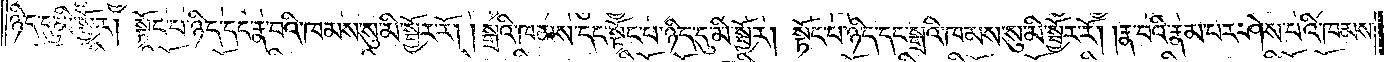ཉིད་དུ་མི་སྦྱོར། སྟོང་པ་ཉིད་དང་རྣ་བའི་ཁམས་སུ་མི་སྦྱོར་རོ། །སྒྲའི་ཁམས་དང་སྟོང་པ་ཉིད་དུ་མི་སྦྱོར། སྟོང་པ་ཉིད་དང་སྒྲའི་ཁམས་སུ་མི་སྦྱོར་རོ། །རྣ་བའི་རྣམ་པར་ཤེས་པའི་ཁམས་
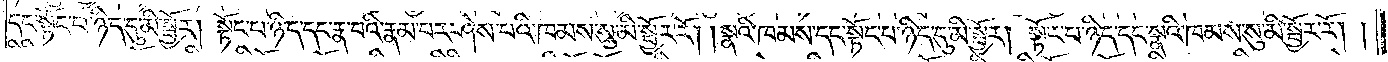དང་སྟོང་པ་ཉིད་དུ་མི་སྦྱོར། སྟོང་པ་ཉིད་དང་རྣ་བའི་རྣམ་པར་ཤེས་པའི་ཁམས་སུ་མི་སྦྱོར་རོ། །སྣའི་ཁམས་དང་སྟོང་པ་ཉིད་དུ་མི་སྦྱོར། སྟོང་པ་ཉིད་དང་སྣའི་ཁམས་སུ་མི་སྦྱོར་རོ། །
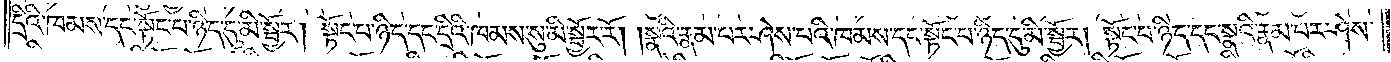དྲིའི་ཁམས་དང་སྟོང་པ་ཉིད་དུ་མི་སྦྱོར། སྟོང་པ་ཉིད་དང་དྲིའི་ཁམས་སུ་མི་སྦྱོར་རོ། །སྣའི་རྣམ་པར་ཤེས་པའི་ཁམས་དང་སྟོང་པ་ཉིད་དུ་མི་སྦྱོར། སྟོང་པ་ཉིད་དང་སྣའི་རྣམ་པར་ཤེས་
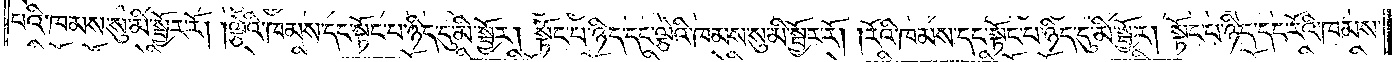པའི་ཁམས་སུ་མི་སྦྱོར་རོ། །ལྕེའི་ཁམས་དང་སྟོང་པ་ཉིད་དུ་མི་སྦྱོར། སྟོང་པ་ཉིད་དང་ལྕེའི་ཁམས་སུ་མི་སྦྱོར་རོ། །རོའི་ཁམས་དང་སྟོང་པ་ཉིད་དུ་མི་སྦྱོར། སྟོང་པ་ཉིད་དང་རོའི་ཁམས་
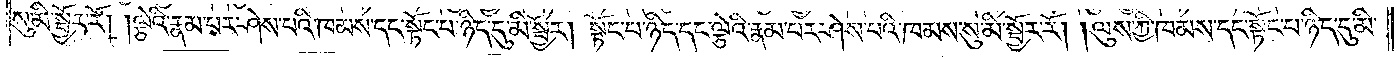སུ་མི་སྦྱོར་རོ། ལྕེའི་རྣམ་པར་ཤེས་པའི་ཁམས་དང་སྟོང་པ་ཉིད་དུ་མི་སྦྱོར། སྟོང་པ་ཉིད་དང་ལྕེའི་རྣམ་པར་ཤེས་པའི་ཁམས་སུ་མི་སྦྱོར་རོ། །ལུས་ཀྱི་ཁམས་དང་སྟོང་པ་ཉིད་དུ་མི་
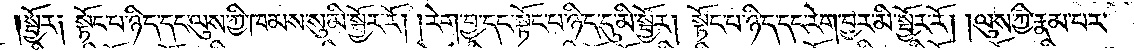སྦྱོར༑ སྟོང་པ་ཉིད་དང་ལུས་ཀྱི་ཁམས་སུ་མི་སྦྱོར་རོ། །རེག་བྱ་དང་སྟོང་པ་ཉིད་དུ་མི་སྦྱོར། སྟོང་པ་ཉིད་དང་རེག་བྱར་མི་སྦྱོར་རོ། །ལུས་ཀྱི་རྣམ་པར་
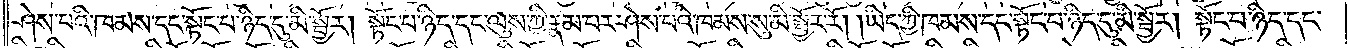ཤེས་པའི་ཁམས་དང་སྟོང་པ་ཉིད་དུ་མི་སྦྱོར། སྟོང་པ་ཉིད་དང་ལུས་ཀྱི་རྣམ་པར་ཤེས་པའི་ཁམས་སུ་མི་སྦྱོར་རོ། །ཡིད་ཀྱི་ཁམས་དང་སྟོང་པ་ཉིད་དུ་མི་སྦྱོར། སྟོང་པ་ཉིད་དང་
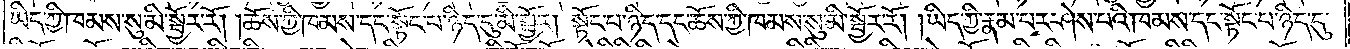ཡིད་ཀྱི་ཁམས་སུ་མི་སྦྱོར་རོ། །ཆོས་ཀྱི་ཁམས་དང་སྟོང་པ་ཉིད་དུ་མི་སྦྱོར། སྟོང་པ་ཉིད་དང་ཆོས་ཀྱི་ཁམས་སུ་མི་སྦྱོར་རོ། །ཡིད་ཀྱི་རྣམ་པར་ཤེས་པའི་ཁམས་དང་སྟོང་པ་ཉིད་དུ་
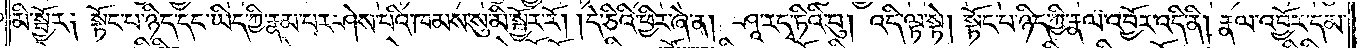མི་སྦྱོར༑ སྟོང་པ་ཉིད་དང་ཡིད་ཀྱི་རྣམ་པར་ཤེས་པའི་ཁམས་སུ་མི་སྦྱོར་རོ། །དེ་ཅིའི་ཕྱིར་ཞེ་ན། ཤཱ་ར་དྭ་ཏིའི་བུ། འདི་ལྟ་སྟེ། སྟོང་པ་ཉིད་ཀྱི་རྣལ་འབྱོར་འདི་ནི། རྣལ་འབྱོར་དམ་
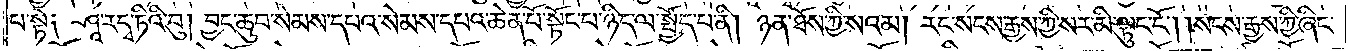པ་སྟེ༑ ཤཱ་ར་དྭ་ཏིའི་བུ། བྱང་ཆུབ་སེམས་དཔའ་སེམས་དཔའ་ཆེན་པོ་སྟོང་པ་ཉིད་ལ་སྤྱོད་པ་ནི། ཉན་ཐོས་ཀྱི་སའམ། རང་སངས་རྒྱས་ཀྱི་སར་མི་ལྟུང་ངོ༌། །སངས་རྒྱས་ཀྱི་ཞིང་
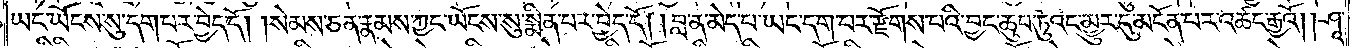ཡང་ཡོངས་སུ་དག་པར་བྱེད་དོ། །སེམས་ཅན་རྣམས་ཀྱང་ཡོངས་སུ་སྨིན་པར་བྱེད་དོ། །བླ་ན་མེད་པ་ཡང་དག་པར་རྫོགས་པའི་བྱང་ཆུབ་ཏུའང་མྱུར་དུ་མངོན་པར་འཚང་རྒྱའོ། །ཤཱ་
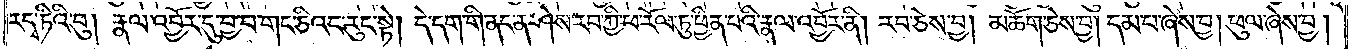ར་དྭ་ཏིའི་བུ། རྣལ་འབྱོར་དུ་བྱ་བ་གང་ཅིའང་རུང་སྟེ། དེ་དག་གི་ནང་ན་ཤེས་རབ་ཀྱི་ཕ་རོལ་ཏུ་ཕྱིན་པའི་རྣལ་འབྱོར་ནི། རབ་ཅེས་བྱ། མཆོག་ཅེས་བྱ། དམ་པ་ཞེས་བྱ། ཕུལ་ཞེས་བྱ།
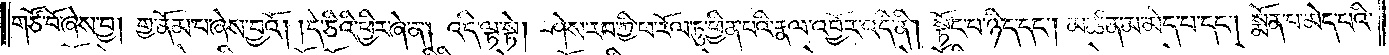གཙོ་བོ་ཞེས་བྱ། གྱ་ནོམ་པ་ཞེས་བྱའོ། །དེ་ཅིའི་ཕྱིར་ཞེ་ན། འདི་ལྟ་སྟེ། ཤེས་རབ་ཀྱི་ཕ་རོལ་ཏུ་ཕྱིན་པའི་རྣལ་འབྱོར་འདི་ནི། སྟོང་པ་ཉིད་དང༌། མཚན་མ་མེད་པ་དང༌། སྨོན་པ་མེད་པའི་
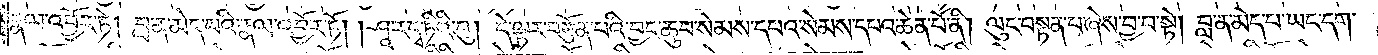རྣལ་འབྱོར་ཏེ། བླ་ན་མེད་པའི་རྣལ་འབྱོར་ཏོ། །ཤཱ་རདྭ་ཏིའི་བུ། དེ་ལྟར་བརྩོན་པའི་བྱང་ཆུབ་སེམས་དཔའ་སེམས་དཔའ་ཆེན་པོ་ནི། ལུང་བསྟན་པ་ཞེས་བྱ་བ་སྟེ། བླ་ན་མེད་པ་ཡང་དག་
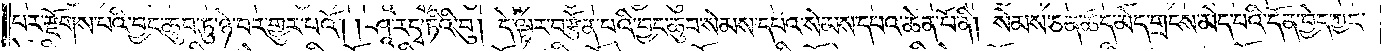པར་རྫོགས་པའི་བྱང་ཆུབ་ཏུ་ཉེ་བར་གྱུར་པའོ། །ཤཱ་རདྭ་ཏིའི་བུ། དེ་ལྟར་བརྩོན་པའི་བྱང་ཆུབ་སེམས་དཔའ་སེམས་དཔའ་ཆེན་པོ་ནི། སེམས་ཅན་ཚད་མེད་གྲངས་མེད་པའི་དོན་བྱེད་ཀྱང་
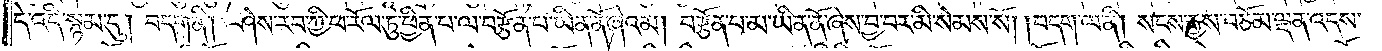དེ་འདི་སྙམ་དུ། བདག་ནི། ཤེས་རབ་ཀྱི་ཕ་རོལ་ཏུ་ཕྱིན་པ་ལ་བརྩོན་པ་ཡིན་ནོ་ཞེའམ། བརྩོན་པ་མ་ཡིན་ནོ་ཞེས་བྱ་བར་མི་སེམས་སོ། །བདག་ལ་ནི། སངས་རྒྱས་བཅོམ་ལྡན་འདས་
